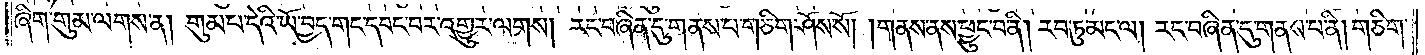ཞིག་གུམ་ལགས་ན། གུམ་པ་དེའི་ཡོ་བྱད་གང་དབང་བར་འགྱུར་ལགས། རང་བཞིན་དུ་གནས་པ་གཅིག་ཤོས་སོ། །གནས་ནས་ཕྱུང་བ་ནི། རབ་ཏུ་མང་ལ། རང་བཞིན་དུ་གནས་པ་ནི། གཅིག་
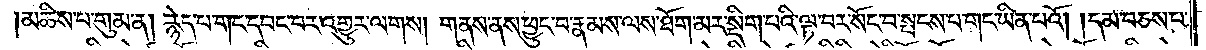མཆིས་པ་གུམ་ན། རྙེད་པ་གང་དབང་བར་འགྱུར་ལགས། གནས་ནས་ཕྱུང་བ་རྣམས་ལས་ཐོག་མར་སྡིག་པའི་ལྟ་བར་སོང་བ་སྤངས་པ་གང་ཡིན་པའོ། །དམ་བཅས་པ་
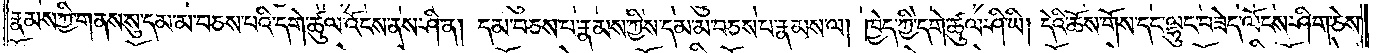རྣམས་ཀྱི་གནས་སུ་དམ་མ་བཅས་པའི་དགེ་ཚུལ་འོངས་ནས་ཤི་ན། དམ་བཅས་པ་རྣམས་ཀྱིས་དམ་མ་བཅས་པ་རྣམས་ལ། ཁྱེད་ཀྱི་དགེ་ཚུལ་ཤི་ཡི། དེའི་ཆོས་གོས་དང་ལྷུང་བཟེད་ལོངས་ཤིག་ཅེས་
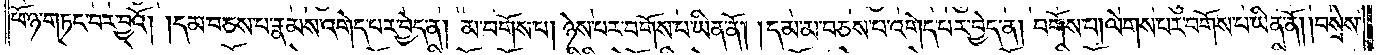ཕོ་ཉ་གཏང་བར་བྱའོ། །དམ་བཅས་པ་རྣམས་འགེད་པར་བྱེད་ན། མ་བགོས་པ། ཉེས་པར་བགོས་པ་ཡིན་ནོ། །དམ་མ་བཅས་པ་འགེད་པར་བྱེད་ན། བགོས་པ། ལེགས་པར་བགོས་པ་ཡིན་ནོ། །བསྲེས་
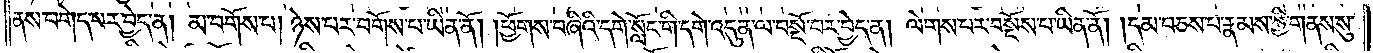ནས་བགེད་པར་བྱེད་ན། མ་བགོས་པ། ཉེས་པར་བགོས་པ་ཡིན་ནོ། །ཕྱོགས་བཞིའི་དགེ་སློང་གི་དགེ་འདུན་ལ་བསྔོ་བར་བྱེད་ན། ལེགས་པར་བསྔོས་པ་ཡིན་ནོ། །དམ་བཅས་པ་རྣམས་ཀྱི་གནས་སུ་
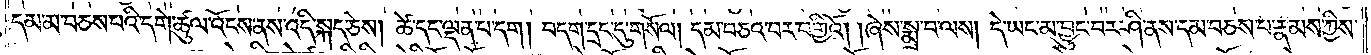དམ་མ་བཅས་པའི་དགེ་ཚུལ་འོངས་ནས་འདི་སྐད་ཅེས། ཚེ་དང་ལྡན་པ་དག། བདག་དྲང་དུ་གསོལ། དམ་བཅའ་བར་བགྱིའོ། །ཞེས་སྨྲ་བ་ལས། དེ་ཡང་མ་བྱུང་བར་ཤི་ནས་དམ་བཅས་པ་རྣམས་ཀྱིས་
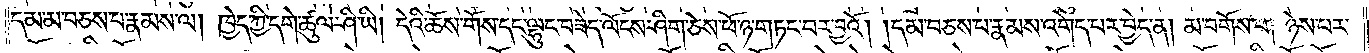དམ་མ་བཅས་པ་རྣམས་ལ། ཁྱེད་ཀྱི་དགེ་ཚུལ་ཤི་ཡི། དེའི་ཆོས་གོས་དང་ལྷུང་བཟེད་ལོངས་ཤིག་ཅེས་ཕོ་ཉ་གཏང་བར་བྱའོ། །དམ་བཅས་པ་རྣམས་འགེད་པར་བྱེད་ན། མ་བགོས་པ། ཉེས་པར་
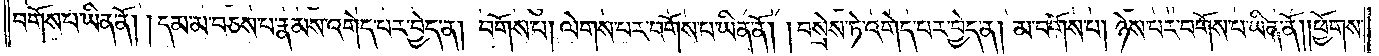བགོས་པ་ཡིན་ནོ། །དམ་མ་བཅས་པ་རྣམས་འགེད་པར་བྱེད་ན། བགོས་པ། ལེགས་པར་བགོས་པ་ཡིན་ནོ། །བསྲེས་ཏེ་འགེད་པར་བྱེད་ན། མ་བགོས་པ། ཉེས་པར་བགོས་པ་ཡིན་ནོ། །ཕྱོགས་
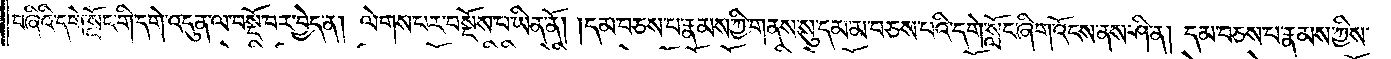བཞིའི་དགེ་སློང་གི་དགེ་འདུན་ལ་བསྔོ་བར་བྱེད་ན། ལེགས་པར་བསྔོས་པ་ཡིན་ནོ། །དམ་བཅས་པ་རྣམས་ཀྱི་གནས་སུ་དམ་མ་བཅས་པའི་དགེ་སློང་ཞིག་འོངས་ནས་ཤི་ན། དམ་བཅས་པ་རྣམས་ཀྱིས་
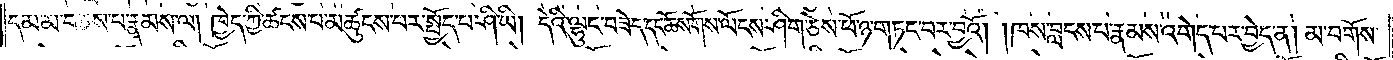དམ་མ་བཅས་པ་རྣམས་ལ། ཁྱེད་ཀྱི་ཚངས་པ་མཚུངས་པར་སྤྱོད་པ་ཤི་ཡི། དེའི་ལྷུང་བཟེད་དང་ཆོས་གོས་ལོངས་ཤིག་ཅེས་ཕོ་ཉ་གཏང་བར་བྱའོ། །ཁས་བླངས་པ་རྣམས་འགེད་པར་བྱེད་ན། མ་བགོས་
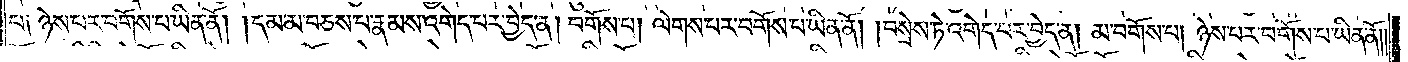པ༑ ཉེས་པར་བགོས་པ་ཡིན་ནོ། །དམ་མ་བཅས་པ་རྣམས་འགེད་པར་བྱེད་ན། བགོས་པ། ལེགས་པར་བགོས་པ་ཡིན་ནོ། །བསྲེས་ཏེ་འགེད་པར་བྱེད་ན། མ་བགོས་པ། ཉེས་པར་བགོས་པ་ཡིན་ནོ༎
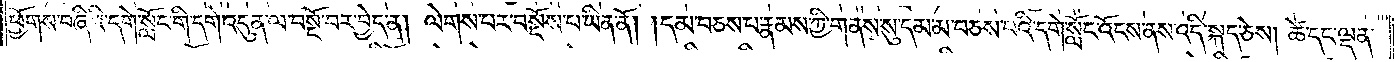ཕྱོགས་བཞིའི་དགེ་སློང་གི་དགེ་འདུན་ལ་བསྔོ་བར་བྱེད་ན། ལེགས་པར་བསྔོས་པ་ཡིན་ནོ། །དམ་བཅས་པ་རྣམས་ཀྱི་གནས་སུ་དམ་མ་བཅས་པའི་དགེ་སློང་འོངས་ནས་འདི་སྐད་ཅེས། ཚེ་དང་ལྡན་
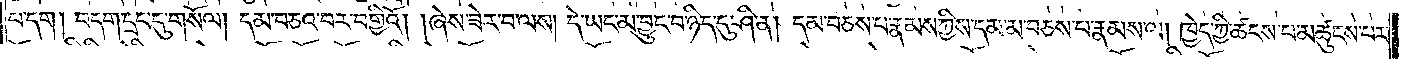པ་དག། བདག་དྲང་དུ་གསོལ། དམ་བཅའ་བར་བགྱིའོ། །ཞེས་ཟེར་བ་ལས། དེ་ཡང་མ་བྱུང་བ་ཉིད་དུ་ཤི་ན། དམ་བཅས་པ་རྣམས་ཀྱིས་དམ་མ་བཅས་པ་རྣམས་ལ། ཁྱེད་ཀྱི་ཚངས་པ་མཚུངས་པར་
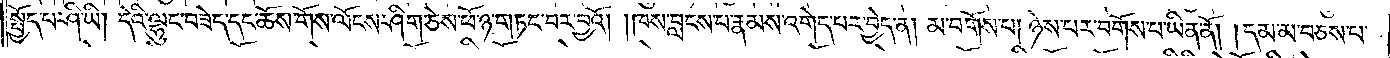སྤྱོད་པ་ཤི་ཡི། དེའི་ལྷུང་བཟེད་དང་ཆོས་གོས་ལོངས་ཤིག་ཅེས་ཕོ་ཉ་གཏང་བར་བྱའོ། །ཁས་བླངས་པ་རྣམས་འགེད་པར་བྱེད་ན། མ་བགོས་པ། ཉེས་པར་བགོས་པ་ཡིན་ནོ། །དམ་མ་བཅས་པ་
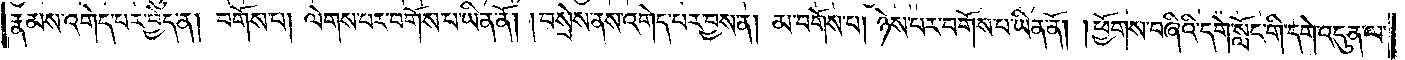རྣམས་འགེད་པར་བྱེད་ན། བགོས་པ། ལེགས་པར་བགོས་པ་ཡིན་ནོ། །བསྲེས་ནས་འགེད་པར་བྱས་ན། མ་བགོས་པ། ཉེས་པར་བགོས་པ་ཡིན་ནོ། །ཕྱོགས་བཞིའི་དགེ་སློང་གི་དགེ་འདུན་ལ་
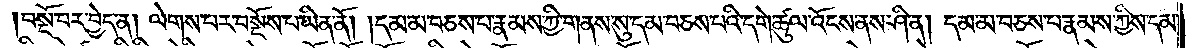བསྔོ་བར་བྱེད་ན། ལེགས་པར་བསྔོས་པ་ཡིན་ནོ། །དམ་མ་བཅས་པ་རྣམས་ཀྱི་གནས་སུ་དམ་བཅས་པའི་དགེ་ཚུལ་འོངས་ནས་ཤི་ན། དམ་མ་བཅས་པ་རྣམས་ཀྱིས་དམ་
